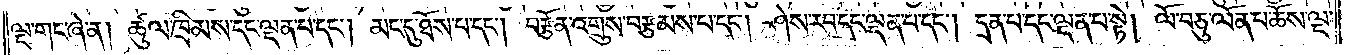ལྔ་གང་ཞེ་ན། ཚུལ་ཁྲིམས་དང་ལྡན་པ་དང༌། མང་དུ་ཐོས་པ་དང༌། བརྩོན་འགྲུས་བརྩམས་པ་དང༌། ཤེས་རབ་དང་ལྡན་པ་དང༌། དྲན་པ་དང་ལྡན་པ་སྟེ། ལོ་བཅུ་ལོན་པ་ཆོས་ལྔ་
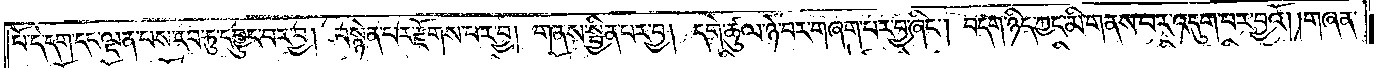པོ་དེ་དག་དང་ལྡན་པས་རབ་ཏུ་དབྱུང་བར་བྱ། བསྙེན་པར་རྫོགས་པར་བྱ། གནས་སྦྱིན་པར་བྱ། དགེ་ཚུལ་ཉེ་བར་གཞག་པར་བྱ་ཞིང༌། བདག་ཉིད་ཀྱང་མི་གནས་པར་འདུག་པར་བྱའོ། །གཞན་
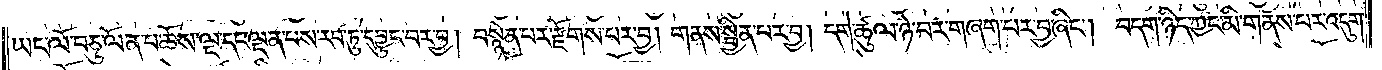ཡང་ལོ་བཅུ་ལོན་པ་ཆོས་ལྔ་དང་ལྡན་པས་རབ་ཏུ་དབྱུང་བར་བྱ། བསྙེན་པར་རྫོགས་པར་བྱ། གནས་སྦྱིན་པར་བྱ། དགེ་ཚུལ་ཉེ་བར་གཞག་པར་བྱ་ཞིང༌། བདག་ཉིད་ཀྱང་མི་གནས་པར་འདུག་
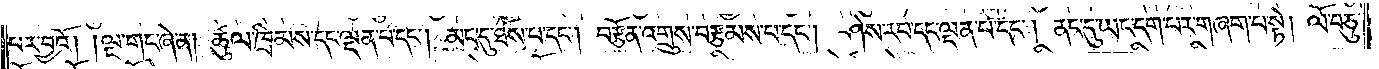པར་བྱའོ། །ལྔ་གང་ཞེ་ན། ཚུལ་ཁྲིམས་དང་ལྡན་པ་དང༌། མང་དུ་ཐོས་པ་དང༌། བརྩོན་འགྲུས་བརྩམས་པ་དང༌། ཤེས་རབ་དང་ལྡན་པ་དང༌། ནང་དུ་ཡང་དག་པར་གཞག་པ་སྟེ། ལོ་བཅུ་
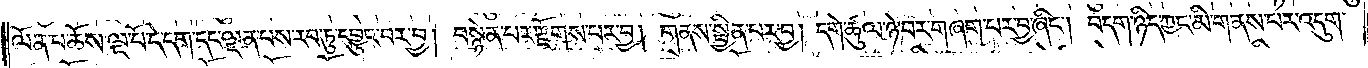ལོན་པ་ཆོས་ལྔ་པོ་དེ་དག་དང་ལྡན་པས་རབ་ཏུ་དབྱུང་བར་བྱ། བསྙེན་པར་རྫོགས་པར་བྱ། གནས་སྦྱིན་པར་བྱ། དགེ་ཚུལ་ཉེ་བར་གཞག་པར་བྱ་ཞིང༌། བདག་ཉིད་ཀྱང་མི་གནས་པར་འདུག་
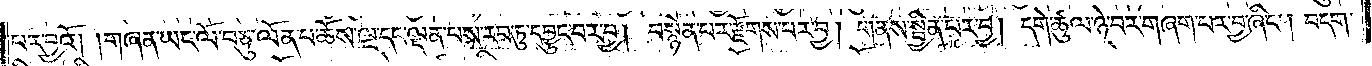པར་བྱའོ། །གཞན་ཡང་ལོ་བཅུ་ལོན་པ་ཆོས་ལྔ་དང་ལྡན་པས་རབ་ཏུ་དབྱུང་བར་བྱ། བསྙེན་པར་རྫོགས་པར་བྱ། གནས་སྦྱིན་པར་བྱ། དགེ་ཚུལ་ཉེ་བར་གཞག་པར་བྱ་ཞིང༌། བདག་
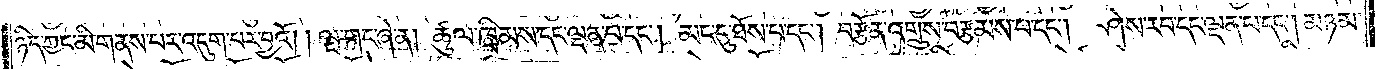ཉིད་ཀྱང་མི་གནས་པར་འདུག་པར་བྱའོ། །ལྔ་གང་ཞེ་ན། ཚུལ་ཁྲིམས་དང་ལྡན་པ་དང༌། མང་དུ་ཐོས་པ་དང༌། བརྩོན་འགྲུས་བརྩམས་པ་དང༌། ཤེས་རབ་དང་ལྡན་པ་དང༌། མཉམ་
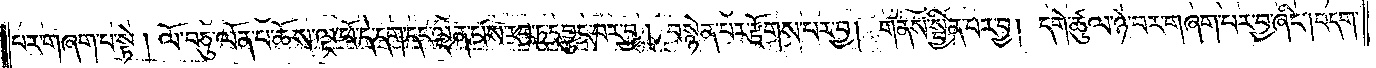པར་གཞག་པ་སྟེ། ལོ་བཅུ་ལོན་པ་ཆོས་ལྔ་པོ་དེ་དག་དང་ལྡན་པས་རབ་ཏུ་དབྱུང་བར་བྱ། བསྙེན་པར་རྫོགས་པར་བྱ། གནས་སྦྱིན་པར་བྱ། དགེ་ཚུལ་ཉེ་བར་གཞག་པར་བྱ་ཞིང༌།བདག་
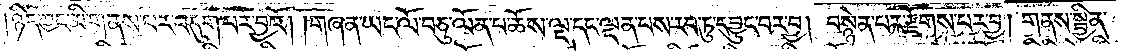ཉིད་ཀྱང་མི་གནས་པར་འདུག་པར་བྱའོ། །གཞན་ཡང་ལོ་བཅུ་ལོན་པ་ཆོས་ལྔ་དང་ལྡན་པས་རབ་ཏུ་དབྱུང་བར་བྱ། བསྙེན་པར་རྫོགས་པར་བྱ། གནས་སྦྱིན་
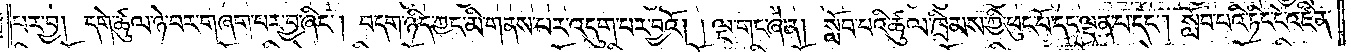པར་བྱ། དགེ་ཚུལ་ཉེ་བར་གཞག་པར་བྱ་ཞིང༌། བདག་ཉིད་ཀྱང་མི་གནས་པར་འདུག་པར་བྱའོ། །ལྔ་གང་ཞེ་ན། སློབ་པའི་ཚུལ་ཁྲིམས་ཀྱི་ཕུང་པོ་དང་ལྡན་པ་དང༌། སློབ་པའི་ཏིང་ངེ་འཛིན་
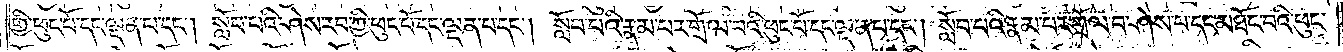གྱི་ཕུང་པོ་དང་ལྡན་པ་དང༌། སློབ་པའི་ཤེས་རབ་ཀྱི་ཕུང་པོ་དང་ལྡན་པ་དང༌། སློབ་པའི་རྣམ་པར་གྲོལ་བའི་ཕུང་པོ་དང་ལྡན་པ་དང༌། སློབ་པའི་རྣམ་པར་གྲོལ་བ་ཤེས་པ་དང་མཐོང་བའི་ཕུང་
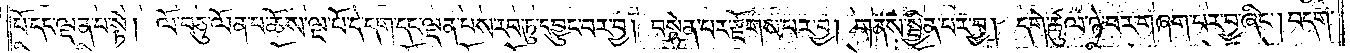པོ་དང་ལྡན་པ་སྟེ། ལོ་བཅུ་ལོན་པ་ཆོས་ལྔ་པོ་དེ་དག་དང་ལྡན་པས་རབ་ཏུ་དབྱུང་བར་བྱ། བསྙེན་པར་རྫོགས་པར་བྱ། གནས་སྦྱིན་པར་བྱ། དགེ་ཚུལ་ཉེ་བར་གཞག་པར་བྱ་ཞིང༌། བདག་
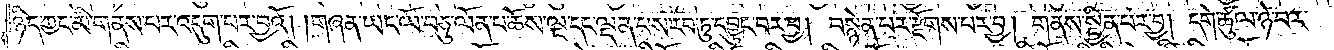ཉིད་ཀྱང་མི་གནས་པར་འདུག་པར་བྱའོ། །གཞན་ཡང་ལོ་བཅུ་ལོན་པ་ཆོས་ལྔ་དང་ལྡན་པས་རབ་ཏུ་དབྱུང་བར་བྱ། བསྙེན་པར་རྫོགས་པར་བྱ། གནས་སྦྱིན་པར་བྱ། དགེ་ཚུལ་ཉེ་བར་
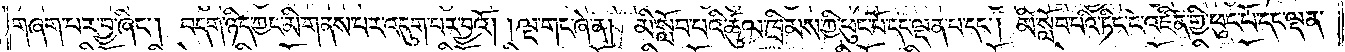གཞག་པར་བྱ་ཞིང༌། བདག་ཉིད་ཀྱང་མི་གནས་པར་འདུག་པར་བྱའོ། །ལྔ་གང་ཞེ་ན། མི་སློབ་པའི་ཚུལ་ཁྲིམས་ཀྱི་ཕུང་པོ་དང་ལྡན་པ་དང༌། མི་སློབ་པའི་ཏིང་ངེ་འཛིན་གྱི་ཕུང་པོ་དང་ལྡན་
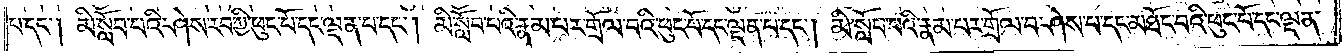པ་དང༌། མི་སློབ་པའི་ཤེས་རབ་ཀྱི་ཕུང་པོ་དང་ལྡན་པ་དང༌། མི་སློབ་པའི་རྣམ་པར་གྲོལ་བའི་ཕུང་པོ་དང་ལྡན་པ་དང༌། མི་སློབ་པའི་རྣམ་པར་གྲོལ་བ་ཤེས་པ་དང་མཐོང་བའི་ཕུང་པོ་དང་ལྡན་
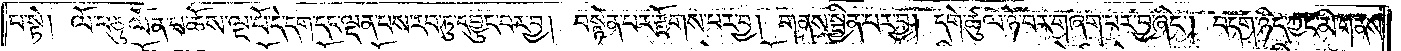པ་སྟེ། ལོ་བཅུ་ལོན་པ་ཆོས་ལྔ་པོ་དེ་དག་དང་ལྡན་པས་རབ་ཏུ་དབྱུང་བར་བྱ། བསྙེན་པར་རྫོགས་པར་བྱ། གནས་སྦྱིན་པར་བྱ། དགེ་ཚུལ་ཉེ་བར་གཞག་པར་བྱ་ཞིང༌། བདག་ཉིད་ཀྱང་མི་གནས་
